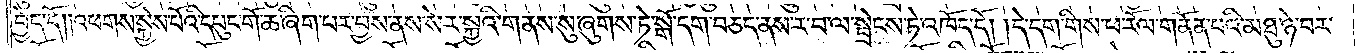བྱེད་དོ། །འཕགས་སྐྱེས་པོའི་དཔུང་གོ་ཆ་ཞིག་པར་བྱས་ནས་སེར་སྐྱའི་གནས་སུ་ཞུགས་ཏེ་སྒོ་དག་བཅད་ནས་ར་བ་ལ་སྦྲེངས་ཏེ་འཁོད་དོ། །དེ་དག་གིས་ཕ་རོལ་གནོན་པའི་མཐུ་ཉེ་བར་
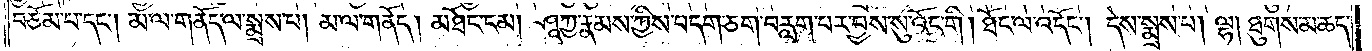བཅོམ་པ་དང༌། མ་ལ་གནོད་ལ་སྨྲས་པ། མ་ལ་གནོད། མཐོང་ངམ། ཤཱཀྱ་རྣམས་ཀྱིས་བདག་ཅག་བརླག་པར་བྱས་སུ་འོང་གི །ཐོང་ལ་འདོང༌། དེས་སྨྲས་པ། ལྷ། ཐུགས་མ་ཆད་
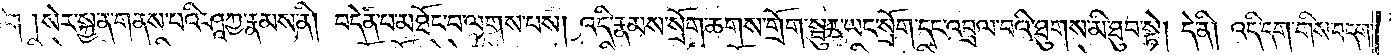ཅིག །སེར་སྐྱ་ན་གནས་པའི་ཤཱཀྱ་རྣམས་ནི། བདེན་པ་མཐོང་བ་ལགས་པས། འདི་རྣམས་སྲོག་ཆགས་གྲོག་སྦུར་ཡང་སྲོག་དང་འབྲལ་བའི་ཐུགས་མི་ཐུབ་སྟེ། དེ་ནི། འདི་དག་གིས་བདག་
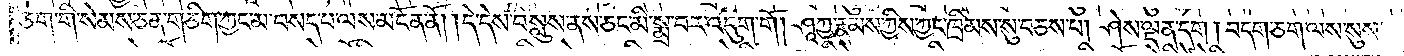ཅག་གི་སེམས་ཅན་གཅིག་ཀྱང་མ་བསད་པ་ལས་མངོན་ནོ། །དེ་དེས་བསླུས་ནས་ཅང་མི་སྨྲ་བར་འདུག་གོ། ཤཱཀྱ་རྣམས་ཀྱིས་ཀྱང་ཁྲིམས་སུ་བཅས་པ། ཤེས་ལྡན་དག །བདག་ཅག་ལས་སུས་
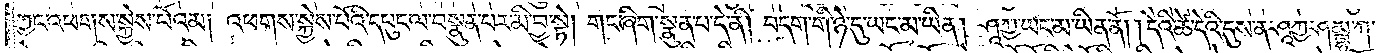ཀྱང་འཕགས་སྐྱེས་པོའམ། འཕགས་སྐྱེས་པོའི་དཔུང་ལ་བསྣུན་པར་མི་བྱ་སྟེ། གང་ཞིག་སྣུན་པ་དེ་ནི། བདག་གི་ཉེ་དུ་ཡང་མ་ཡིན། ཤཱཀྱ་ཡང་མ་ཡིན་ནོ། །དེའི་ཚེ་དེའི་དུས་ན་ཤཱཀྱ་ཤམྦྷ་ཀ་
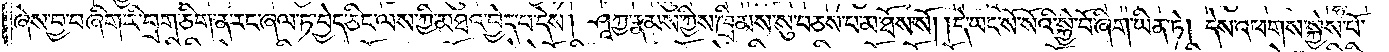ཞེས་བྱ་བ་ཞིག་རི་བྲག་ཅིག་ན་རང་ཞལ་ཏ་བྱེད་ཅིང་ལས་ཀྱི་མཐའ་བྱེད་པ་དེས། ཤཱཀྱ་རྣམས་ཀྱིས་ཁྲིམས་སུ་བཅས་པ་མ་ཐོས་སོ། །དེ་ཡང་སོ་སོའི་སྐྱེ་བོ་ཞིག་ཡིན་ཏེ། དེས་འཕགས་སྐྱེས་པོ་
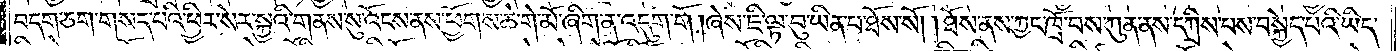བདག་ཅག་གསད་པའི་ཕྱིར་སེར་སྐྱའི་གནས་སུ་འོངས་ནས་ཕྱོགས་ཆེ་གེ་མོ་ཞིག་ན་འདུག་གོ །ཞེས་ཇི་ལྟ་བུ་ཡིན་པ་ཐོས་སོ། །ཐོས་ནས་ཀྱང་ཁྲོ་བས་ཀུན་ནས་དཀྲིས་པས་བསྐྱེད་པའི་ཡིད་
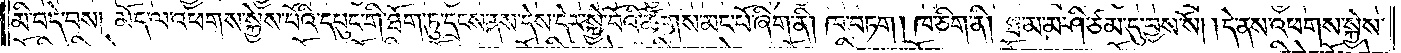མི་བདེ་བས། མོད་ལ་འཕགས་སྐྱེས་པོའི་དཔུང་གི་ཐོག་ཏུ་དྲངས་ནས་དེས་དེར་སྐྱེ་བོའི་ཚོགས་མང་པོ་ཞིག་ནི། ཁ་བཏག །ཁ་ཅིག་ནི། ཐ་མ་མ་ཤི་ཙམ་དུ་བྱས་སོ། །དེ་ནས་འཕགས་སྐྱེས་
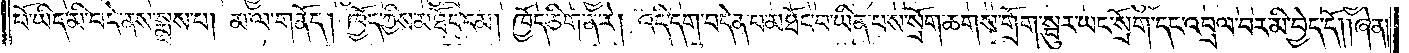པོ་ཡིད་མི་བདེ་ནས་སྨྲས་པ། མ་ལ་གནོད། ཁྱོད་ཀྱིས་མཐོང་ངམ། ཁྱོད་ཅིག་ན་རེ། འདི་དག་བདེན་པ་མཐོང་བ་ཡིན་པས་སྲོག་ཆགས་གྲོག་སྦུར་ཡང་སྲོག་དང་འབྲལ་བར་མི་བྱེད་དོ། །ཞེ་ན།
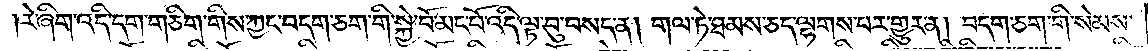རེ་ཞིག་འདི་དག་གཅིག་གིས་ཀྱང་བདག་ཅག་གི་སྐྱེ་བོ་མང་པོ་འདི་ལྟ་བུ་བསད་ན། གལ་ཏེ་ཐམས་ཅད་ལྷགས་པར་གྱུར་ན། བདག་ཅག་གི་སེམས་
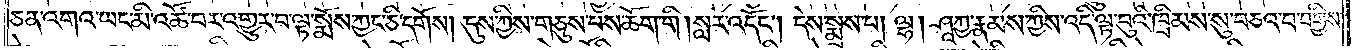ཅན་འགའ་ཡང་མི་འཚོ་བར་འགྱུར་བ་ལྟ་སྨོས་ཀྱང་ཅི་དགོས། དུས་ཀྱིས་བཅུས་པས་ཆོག་གི །སླར་འདོང༌། དེས་སྨྲས་པ། ལྷ། ཤཱཀྱ་རྣམས་ཀྱིས་འདི་ལྟ་བུའི་ཁྲིམས་སུ་བཅའ་བ་བགྱིས་
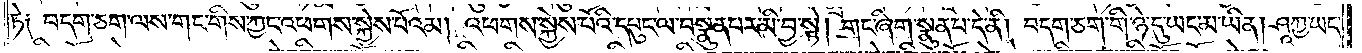ཏེ། བདག་ཅག་ལས་གང་གིས་ཀྱང་འཕགས་སྐྱེས་པོའམ། འཕགས་སྐྱེས་པོའི་དཔུང་ལ་བསྣུན་པར་མི་བྱ་སྟེ། གང་ཞིག་སྣུན་པ་དེ་ནི། བདག་ཅག་གི་ཉེ་དུ་ཡང་མ་ཡིན། ཤཱཀྱ་ཡང་
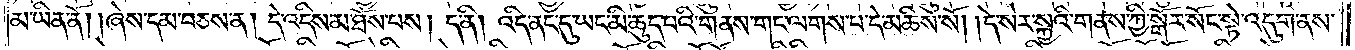མ་ཡིན་ནོ། །ཞེས་དམ་བཅས་ན། དེ་འདིས་མ་ཐོས་པས། ད་ནི། འདི་ནང་དུ་ཡང་མི་ཆུད་པའི་གནས་གང་ལགས་པ་དེ་མཆིས་སོ། །དེ་སེར་སྐྱའི་གནས་ཀྱི་སྒོར་སོང་སྟེ་འདུག་ནས་
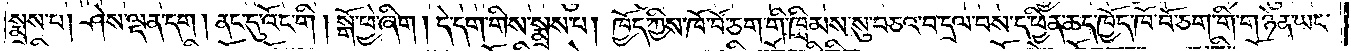སྨྲས་པ། ཤེས་ལྡན་དག །ནང་དུ་འོང་གི །སྒོ་ཕྱེ་ཞིག །དེ་དག་གིས་སྨྲས་པ། ཁྱོད་ཀྱིས་ཁོ་བོ་ཅག་གི་ཁྲིམས་སུ་བཅའ་བ་དྲལ་བས་ད་ཕྱིན་ཆད་ཁྱོད་ཁོ་བོ་ཅག་གི་གཉེན་ཡང་
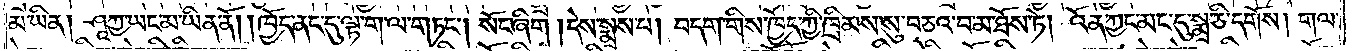མ་ཡིན། ཤཱཀྱ་ཡང་མ་ཡིན་ནོ། །ཁྱོད་ནང་དུ་ལྟ་ག་ལ་གཏང༌། སོང་ཞིག །དེས་སྨྲས་པ། བདག་གིས་ཁྱོད་ཀྱི་ཁྲིམས་སུ་བཅའ་བ་མ་ཐོས་ཏེ། འོན་ཀྱང་མང་དུ་སྨྲ་ཅི་དགོས། གལ་
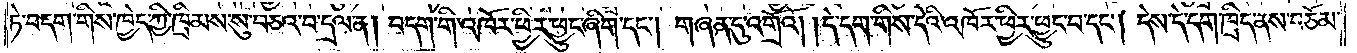ཏེ་བདག་གིས་ཁྱེད་ཀྱི་ཁྲིམས་སུ་བཅའ་བ་དྲལ་ན། བདག་གི་འཁོར་ཕྱིར་ཕྱུང་ཞིག་དང༌། གཞན་དུ་འགྲོའོ། །དེ་དག་གིས་དེའི་འཁོར་ཕྱིར་ཕྱུང་བ་དང༌། དེས་དེ་དག་ཁྲིད་ནས་བཅོམ་
